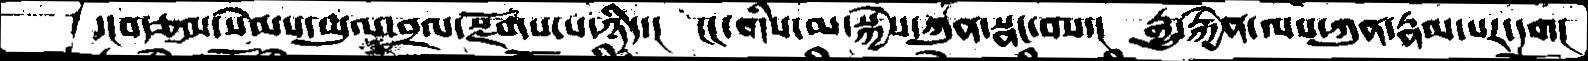དངབརྩལ་སེམས་ཡུལ་བྲལ་སྫོགས་པ་ཉིད་།  ངང་གིས་མ་སྐྱེས་ཀུན་སྣང་བས་།  རྒྱུ་རྐྱེན་ལས་ཀུན་རྣམ་པར་དག།
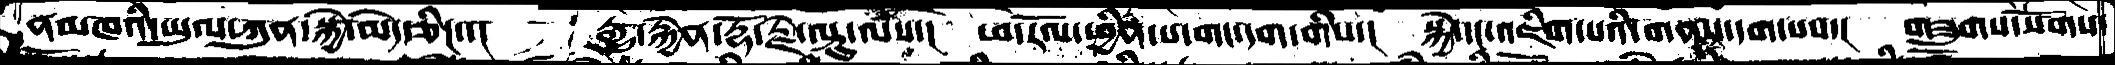ནམཁའི་ཡུལ་ཀུན་སྐྱེ་མེད་ཅིང་་།  རྒྱུ་རྐྱེན་རྡོ་རྗེ་ལྟུ་ལས་།  ཕ་རོལ་ཕྱིན་པ་གང་དག་གིས་།  སྐྱེ་དང་འཇིག་པའི་གནས་དག་པས་།  གཟུགས་སོགས་
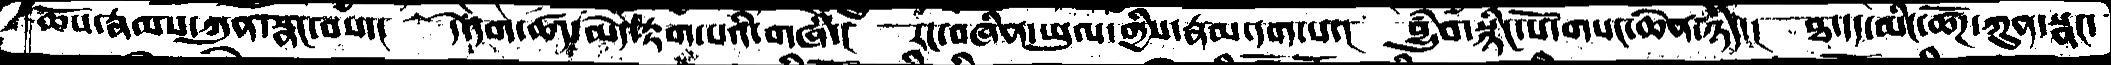ཆོས་རྣམས་ཀུན་སྣང་བས་།  དེ་དག་ཚད་མེད་རྟག་པའི་གཞི་།  རང་བཞིན་ཡུལ་གྱིས་རྣམ་དག་པ་།  བྱུཾབ་སྙིང་པོ་གསང་ཆེན་ཉིད་།  ཐ་དད་མིང་ཚོཌ་ཀུན་སྣང་
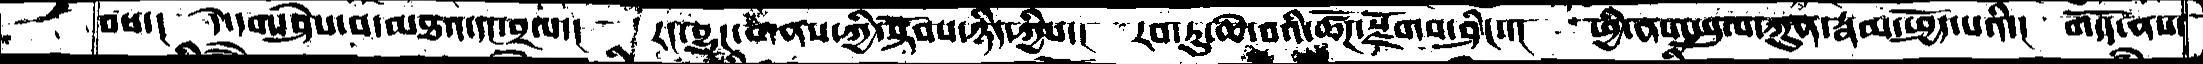བས་།  དེ་དག་ཤེས་པ་མཐའ་དང་བྲལ་།  རང་བྱུང་གནས་ཀྱི་སྟོབས་ཉིད་ཀྱིས་།  རབ་ཏུ་ཆེ་བའི་ཚོཌ་སྫོགས་ཤིང་་།  ཕྱི་ནས་ཡུལ་ཀུན་རྣམ་ཕྱོད་པའི་།  གདོད་ནས་
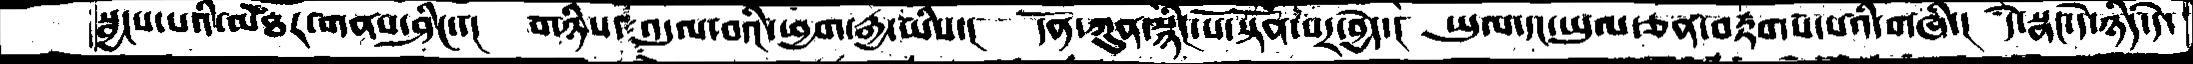སྦྱངས་པའི་མཐར་གནས་ཤིང་་།  གཉིས་འདུལ་བའི་ཕྱག་རྒྱ་ཡིས་།  དོན་ཀུན་སྙིང་པོ་སྟོན་པར་བྱེད་།  ཡུལ་དང་ཡུལ་ཅན་བརྟགས་པའི་གཞི་།  དེ་སྣང་དེ་ཉིད་དེ་
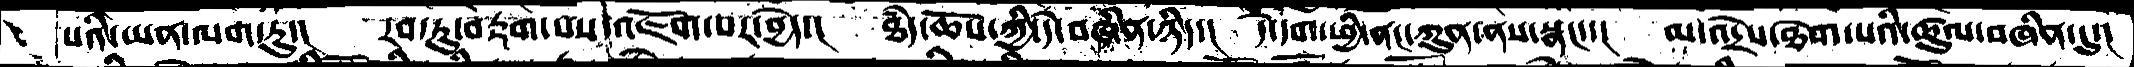པའི་ཡན་ལག་ཏུ་།  རབ་ཏུ་བརྟག་པས་འཇོག་པར་བྱེད་།  ཐཾད་ཆོས་ཀྱི་དེ་བཞིན་ཉིད་།  དེ་དག་ཕྱི་ནང་ཀུན་ནས་སྣང་་།  མ་འདྲེས་ཐེག་པའི་ཚུལ་བཞིན་དུ་།
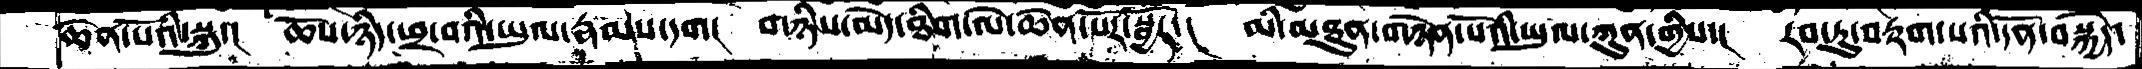ཆེན་པོའི་སྐུ་།  ཆོས་ཉིད་ཕྲ་བའི་ཡུལ་རྣམས་དག།  གཉིས་མེད་ཐིག་ལེ་ཆེན་པོར་སྦྱོར་།  མི་མཐུན་གཉེན་པོའི་ཡུལ་ཀུན་གྱིས་།  རབ་ཏུ་བརྟག་པའི་དོན་བསྐྱེད་
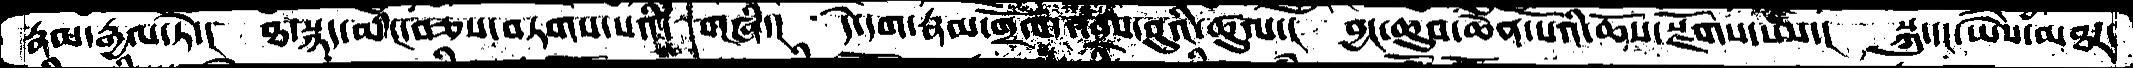རྣམ་རྒྱལ་ཏེ་།  ཐ་སྙད་མིང་བཅས་བཏགས་པའི་གཞི་།  དེ་དག་རྣམ་གྲོལ་འབྲས་བུའི་ཚུལ་།  བྱང་ཆུབ་ཆེན་པོའི་ཆོས་སྫོགས་པས་།  སྐུ་དང་ཡཻས་མཐར་
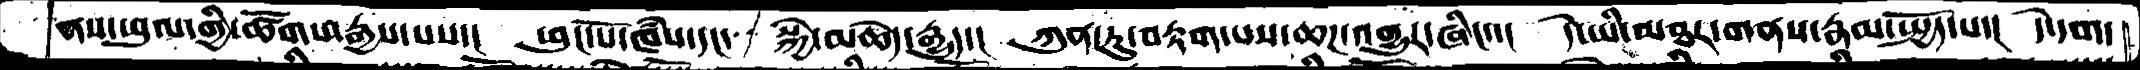ནས་ཡུལ་གྱི་ཚོགས་རྒྱས་པས་།  ཕུང་པོ་ཁཾས་དང་  སྐྱེ་མཆེད་རྒྱུད་།  ཀུན་ཏུ་བརྟག་པས་ཆཌ་འགྱུར་ཞིང་་།  དེ་ཡི་མཐར་གནས་རྣམ་སྤྱོད་པ་།  དེ་དག་
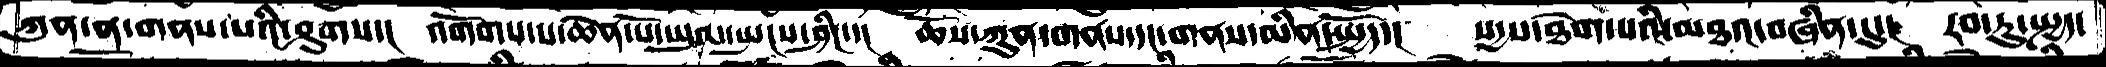ཀུན་ན་གནས་པའི་ཤུགས་།  འགོགས་པ་ཆེན་པོ་ཡུལ་སྤངས་ཤིང་་།  ཆོས་ཀུན་གནས་དང་གནས་མིན་སྤྱོད་།  སདྱས་ཐེག་པའི་མཐའ་བཞིན་དུ་།  རབ་ཏུ་སྤྱད་
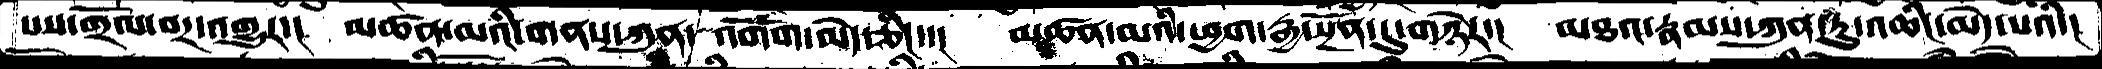པས་གྲོལ་བར་འགྱུར་།  མཚན་མའི་གནས་ཀུན་འགོག་མེད་ཅིང་།  མཚན་མའི་ཕྱག་རྒྱ་སྔོན་དུ་གཉེར་།  མཐའ་རྣམས་ཀུན་ཏུ་འཆིང་མེད་པའི་།
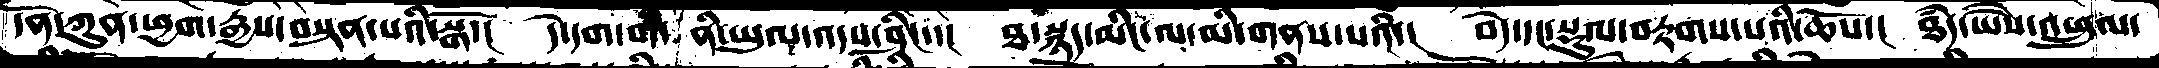དོན་ཀུན་ཕྱག་རྒྱས་བསྟན་པའི་སྒོ་།  དེ་དག་གི་ནི་ཡུལ་འདས་ཤིང་་།  ཐ་སྙད་མིང་ལ་མི་གནས་པའི་།  བདེ་དང་སྡུལ་བརྟགས་པའི་ཆོས་།  ཐཾད་ཡཻས་འཕྲུལ་
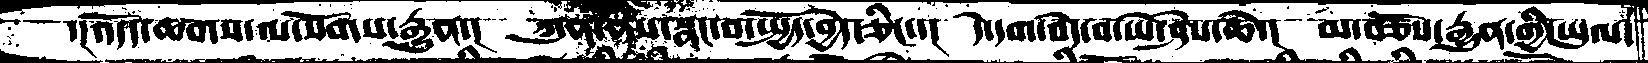་།འདོད་ཆགས་ལ་སོགས་རྒྱུན་།  ཀུན་ནས་སྣང་བ་སྤྱོད་བྱེད་ཅིང་་།  དེ་དག་བདེ་བ་ཡེ་ཤེས་ཆེ་།  མ་བཅོས་རྒྱུན་གྱི་ཡུལ་
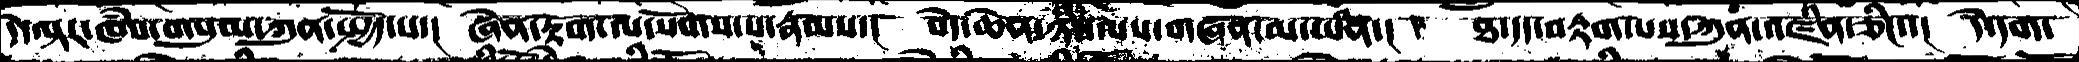དེ་ལྟར་ཁཾས་གསུམ་ཀུན་སྤྱོད་པ་།  ཞེན་རྟོག་ལ་སོགས་པ་རྣམས་།  བདེ་ཆེན་ཉིད་ལས་གཞན་མ་ཡིན་།  ཐ་དད་བརྟག་པས་ཀུན་འཛིན་ཅིང་་།  དེ་དག་
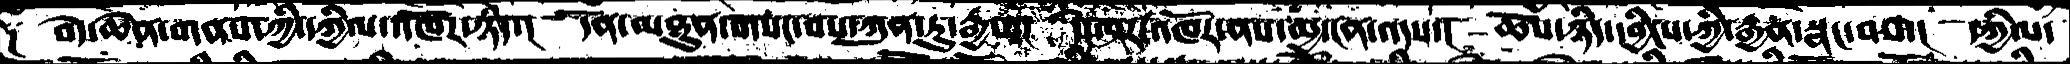༑  བདེ་ཆེན་གནས་ཀྱི་དཀྱིལ་འཁོར་ཉིད་།  དོན་མཐུན་གསང་བས་ཀུན་ཏུ་རྒྱས་།  དེ་ལྟར་འཁོར་ནས་མྱ་ངན་འདས་།  ཆོས་ཉིད་དབྱིངས་ཀྱི་རྒྱན་སྣང་བས་།  དཀྱིལ་
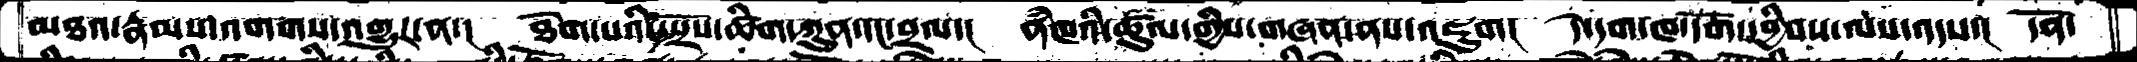མཐའ་རྣམས་འགགས་འགྱུར་ན་།  ཐེག་པའི་སྤྲོས་ཚིག་ཀུན་དང་བྲལ་།  ནཾཁའི་ཚུལ་གྱིས་གཞན་ནས་འཇུག།  དེ་དག་ཁ་དོག་དབྱིབས་ལས་འདས་།  དོན་
